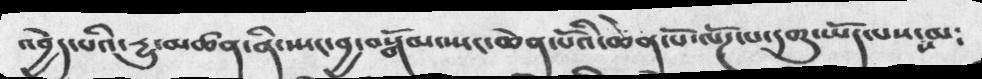འབྱེད་པའི་དྱུ་མཚན་ནི་སྤང་བྱ་བསྒོམ་སྤང་ཆེན་པོའི་ཆེན་པོ་ལོཌ་པ་དགུ་ཡོད་པས་སམ༴
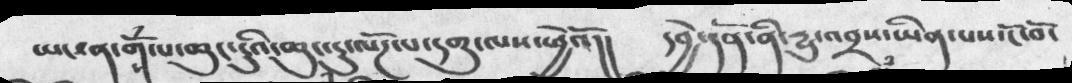ཡང་ན་གོཾ་པ་ཆུང་དུའི་ཆུང་དུ་ལོཌ་པ་དགུ་ལས་ཕྱེའོ།།   དབྱེ་དོན་ནི་དྱུ་འབྲས་ཡིན་པས་ངོ་བོ་
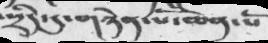སྲིད་དུ་གཉེན་པོ་ཆེན་པོ
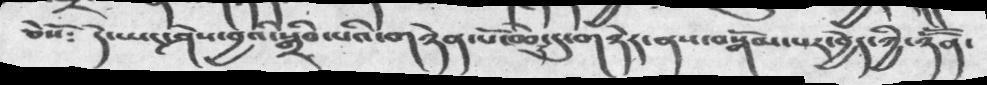ཅེསོ༴  དེ་ཡང་ཤེས་བྱའི་སྒྲིབ་པའི་གཉེན་པོ་ཆེར་ངུ་གཉེར་ནས་བསྒོམ་པར་བྱེད་ཀྱི་ཉོོན་
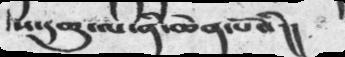ས་དགུ་ལ་ནི་ཆེན་པོའི།།
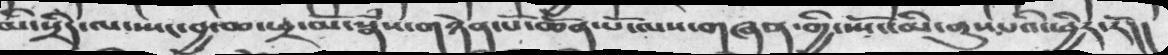མི་སྲིད་ལ་ཡང་བྱ་ཆ་ཕྲ་མོ་སྣཾས་གཉེན་པོ་ཆེན་པོ་ལས་གཞན་གྱི་སྤོང་མི་ནུས་པའི་ཕྱིར་རོ།།
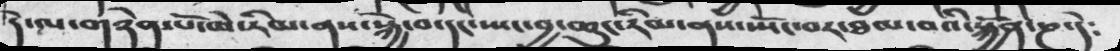དེ་ལ་གཉེན་པོ་མེ་རིམ་ནས་སྐྱེ་བ་དང་སྤང་བྱ་ཆུང་རིམ་ནས་སྤོང་བར་ཐལ་བའི་སྐྱོན་ཎ་དེ༴
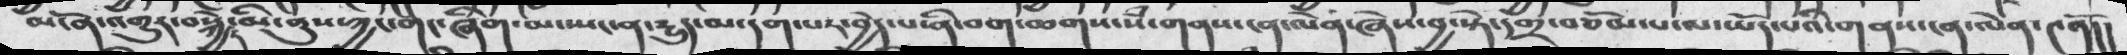མངོན་འགྱུར་བསྐྱེད་མི་ནུས་ཀྱང་གང་ཞིག་མ་སྤང་ན་དྱུད་མ་དག་པར་བྱེད་པ་ནི་བག་ཆགས་སཾ་གནས་ངན་ལེན་ཞེས་བྱ་སྟེ་དགྲ་བཅོམ་པ་ལ་ཡོད་པའི་གནས་ངན་ལེན་༤ནོ།།
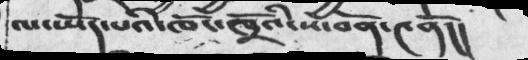ལ་ཡོད་པའི་ཁོང་ཁྲོའི་ས་བོན་༤ནོ།།
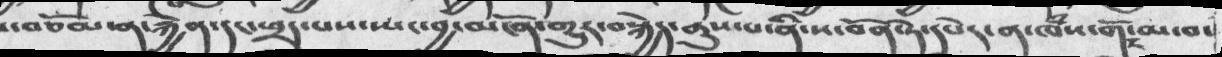་བཅོམ་ན་རྐྱེན་དང་ཕྲད་པས་སྤང་བྱ་མངོན་གྱུར་བསྐྱེད་ནུས་པ་ནི་ས་བོན་ཏེ་དཔེར་ན་ཁཾས་གོང་མ་བ་
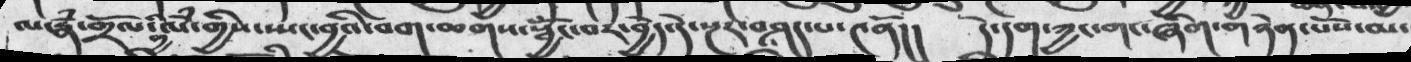ལ་རྣཾ་གྲོལ་གྱི་ལཾ་གྱིས་སྤང་བྱའའི་བག་ཆགས་སྦྱོང་བར་བྱེད་དེ་སྔར་བཤད་པ་༤ནོ།།  དེ་དག་ཀྱང་གང་ཞིག་གཉེན་པོས་མ་
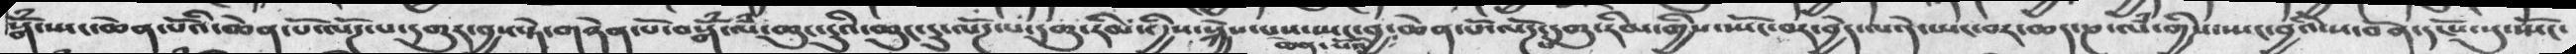སྒོྃ་སྤང་ཆེན་པོའི་ཆེན་པོ་ལོཌ་པ་དགུར་བྱས་ཏེ་གཉེན་པོ་བསྒོཾ་ལཾ་ཆུང་ངུའི་ཆུང་ངུ་ལོཌ་པ་དགུ་རིམ་གྱིས་སྐྱེས་པས་སྤང་བྱ་ཆེན་པོ་ལོཌ་དགུ་རིམ་གྱིས་སྤོང་བར་བྱེད་པ་དེ་ཡང་བར་ཆད་ཎ་ལཾ་གྱིས་སྤང་བྱའི་ས་བོན་དངོས་སུ་སྤོང་
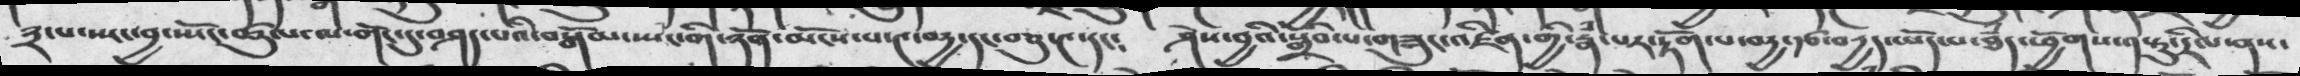༣་པ་སྤང་བྱ་སྤོང་ཚུལ་མ་གོང་དུ་བཤད་པའི་བསྒོམ་སྤང་གི་ཉོན་མོངས་པ་༤་བདྱ་དང་བཅུ་༤་དང༴  ཤེས་བྱའི་སྒྲིབ་པ་གཟུང་འཛིན་གྱི་རྣཾ་པར་རྟོག་པ་བདྱ་རྩ་བདྱད་ཡོད་པ་ཐཾད་ཕྱོགས་༡་ཏུ་དྲིལ་ནས་
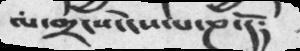ལཾ་གྲངས་ངེས་པ་ཎ་དོ༴
